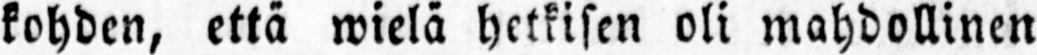kohden, että wielä hetkisen oli mahdollinen
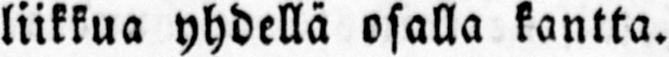liikkua yhdellä osalla kantta.
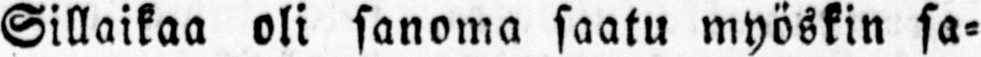Sillaikaa oli sanoma saatu myöskin sa-
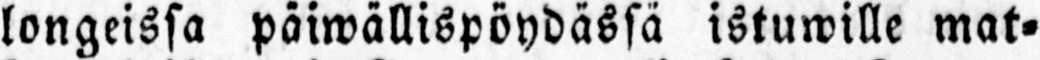longeissa päiwällispöydässä istuwille mat-
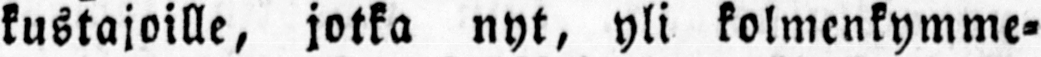kustajoille, jotka nyt, yli kolmenkymme-
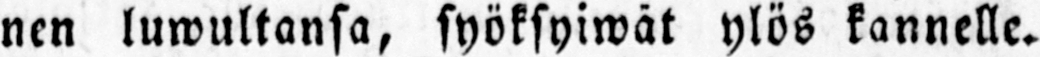nen luwultansa, syöksyiwät ylös kannelle.
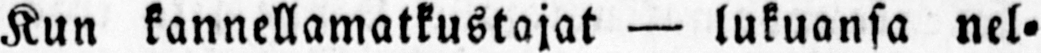Kun kannellamatkustajat — lukuansa nel-
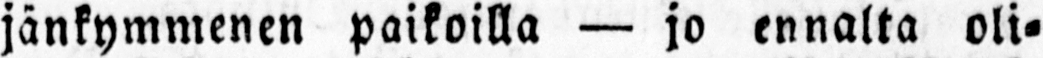jänkymmenen paikoilla — jo ennalta oli-
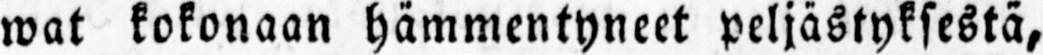wat kokonaan hämmentyneet peljästyksestä,
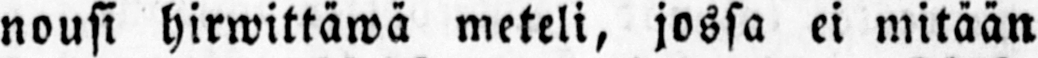nousi hirwittäwä meteli, jossa ei mitään
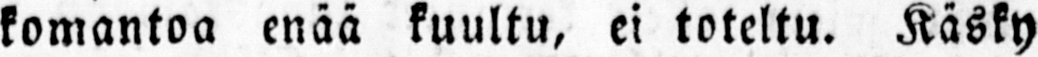komantoa enää kuultu, ei toteltu. Käsky
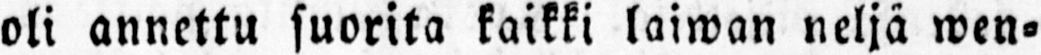oli annettu suorita kaikki laiwan neljä wen-
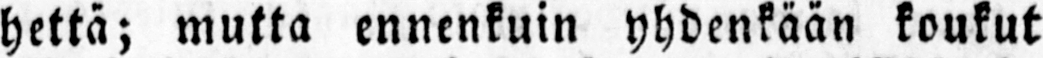hettä; mutta ennenkuin yhdenkään koukut
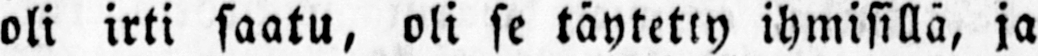oli irti saatu, oli se täytetty ihmisillä, ja
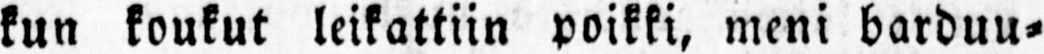kun koukut leikattiin poikki, meni harduu-
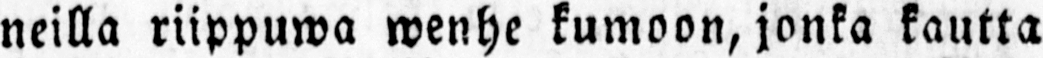neilla riippuwa wenhe kumoon, jonka kautta
